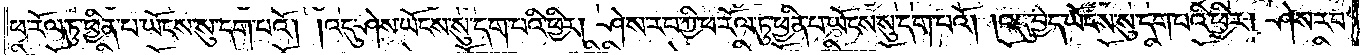ཕ་རོལ་ཏུ་ཕྱིན་པ་ཡོངས་སུ་དག་པའོ། །འདུ་ཤེས་ཡོངས་སུ་དག་པའི་ཕྱིར། ཤེས་རབ་ཀྱི་ཕ་རོལ་ཏུ་ཕྱིན་པ་ཡོངས་སུ་དག་པའོ། །འདུ་བྱེད་ཡོངས་སུ་དག་པའི་ཕྱིར། ཤེས་རབ་
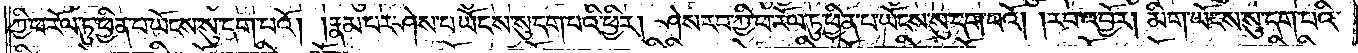ཀྱི་ཕ་རོལ་ཏུ་ཕྱིན་པ་ཡོངས་སུ་དག་པའོ། །རྣམ་པར་ཤེས་པ་ཡོངས་སུ་དག་པའི་ཕྱིར། ཤེས་རབ་ཀྱི་ཕ་རོལ་ཏུ་ཕྱིན་པ་ཡོངས་སུ་དག་པའོ། །རབ་འབྱོར། མིག་ཡོངས་སུ་དག་པའི་
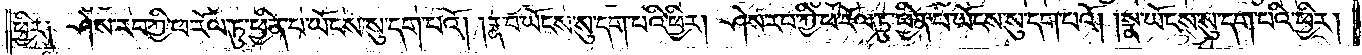ཕྱིར༑ ཤེས་རབ་ཀྱི་ཕ་རོལ་ཏུ་ཕྱིན་པ་ཡོངས་སུ་དག་པའོ། །རྣ་བ་ཡོངས་སུ་དག་པའི་ཕྱིར། ཤེས་རབ་ཀྱི་ཕ་རོལ་ཏུ་ཕྱིན་པ་ཡོངས་སུ་དག་པའོ། །སྣ་ཡོངས་སུ་དག་པའི་ཕྱིར།
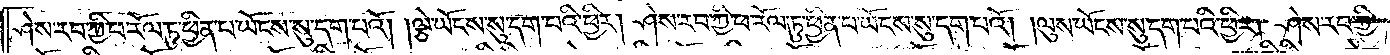ཤེས་རབ་ཀྱི་ཕ་རོལ་ཏུ་ཕྱིན་པ་ཡོངས་སུ་དག་པའོ། །ལྕེ་ཡོངས་སུ་དག་པའི་ཕྱིར། ཤེས་རབ་ཀྱི་ཕ་རོལ་ཏུ་ཕྱིན་པ་ཡོངས་སུ་དག་པའོ། །ལུས་ཡོངས་སུ་དག་པའི་ཕྱིར། ཤེས་རབ་ཀྱི་
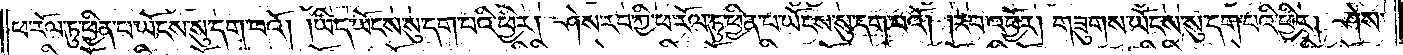ཕ་རོལ་ཏུ་ཕྱིན་པ་ཡོངས་སུ་དག་པའོ། །ཡིད་ཡོངས་སུ་དག་པའི་ཕྱིར། ཤེས་རབ་ཀྱི་ཕ་རོལ་ཏུ་ཕྱིན་པ་ཡོངས་སུ་དག་པའོ། །རབ་འབྱོར། གཟུགས་ཡོངས་སུ་དག་པའི་ཕྱིར། ཤེས་
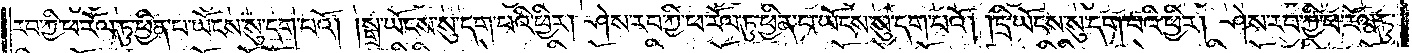རབ་ཀྱི་ཕ་རོལ་ཏུ་ཕྱིན་པ་ཡོངས་སུ་དག་པའོ། །སྒྲ་ཡོངས་སུ་དག་པའི་ཕྱིར། ཤེས་རབ་ཀྱི་ཕ་རོལ་ཏུ་ཕྱིན་པ་ཡོངས་སུ་དག་པའོ། །དྲི་ཡོངས་སུ་དག་པའི་ཕྱིར། ཤེས་རབ་ཀྱི་ཕ་རོལ་ཏུ་
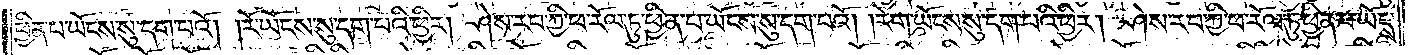ཕྱིན་པ་ཡོངས་སུ་དག་པའོ། །རོ་ཡོངས་སུ་དག་པའི་ཕྱིར། ཤེས་རབ་ཀྱི་ཕ་རོལ་ཏུ་ཕྱིན་པ་ཡོངས་སུ་དག་པའོ། །རེག་ཡོངས་སུ་དག་པའི་ཕྱིར། ཤེས་རབ་ཀྱི་ཕ་རོལ་ཏུ་ཕྱིན་པ་ཡོངས་
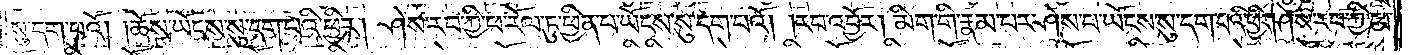སུ་དག་པའོ། །ཆོས་ཡོངས་སུ་དག་པའི་ཕྱིར། ཤེས་རབ་ཀྱི་ཕ་རོལ་ཏུ་ཕྱིན་པ་ཡོངས་སུ་དག་པའོ། །རབ་འབྱོར། མིག་གི་རྣམ་པར་ཤེས་པ་ཡོངས་སུ་དག་པའི་ཕྱིར། ཤེས་རབ་ཀྱི་ཕ་
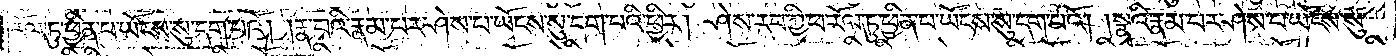རོལ་ཏུ་ཕྱིན་པ་ཡོངས་སུ་དག་པའོ། །རྣ་བའི་རྣམ་པར་ཤེས་པ་ཡོངས་སུ་དག་པའི་ཕྱིར། ཤེས་རབ་ཀྱི་ཕ་རོལ་ཏུ་ཕྱིན་པ་ཡོངས་སུ་དག་པའོ། །སྣའི་རྣམ་པར་ཤེས་པ་ཡོངས་སུ་
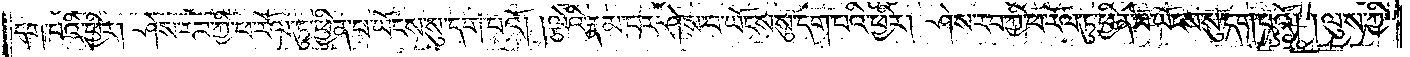དག་པའི་ཕྱིར། ཤེས་རབ་ཀྱི་ཕ་རོལ་ཏུ་ཕྱིན་པ་ཡོངས་སུ་དག་པའོ། །ལྕེའི་རྣམ་པར་ཤེས་པ་ཡོངས་སུ་དག་པའི་ཕྱིར། ཤེས་རབ་ཀྱི་ཕ་རོལ་ཏུ་ཕྱིན་པ་ཡོངས་སུ་དག་པའོ། །ལུས་ཀྱི་
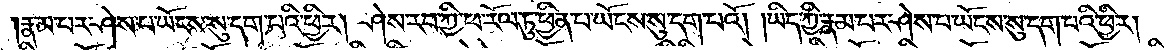རྣམ་པར་ཤེས་པ་ཡོངས་སུ་དག་པའི་ཕྱིར། ཤེས་རབ་ཀྱི་ཕ་རོལ་ཏུ་ཕྱིན་པ་ཡོངས་སུ་དག་པའོ། །ཡིད་ཀྱི་རྣམ་པར་ཤེས་པ་ཡོངས་སུ་དག་པའི་ཕྱིར།
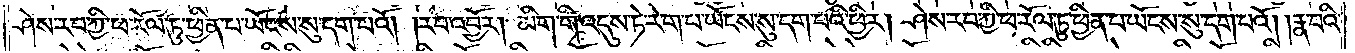ཤེས་རབ་ཀྱི་ཕ་རོལ་ཏུ་ཕྱིན་པ་ཡོངས་སུ་དག་པའོ། །རབ་འབྱོར། མིག་གི་འདུས་ཏེ་རེག་པ་ཡོངས་སུ་དག་པའི་ཕྱིར། ཤེས་རབ་ཀྱི་ཕ་རོལ་ཏུ་ཕྱིན་པ་ཡོངས་སུ་དག་པའོ། །རྣ་བའི་
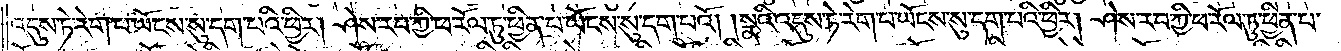འདུས་ཏེ་རེག་པ་ཡོངས་སུ་དག་པའི་ཕྱིར། ཤེས་རབ་ཀྱི་ཕ་རོལ་ཏུ་ཕྱིན་པ་ཡོངས་སུ་དག་པའོ། །སྣའི་འདུས་ཏེ་རེག་པ་ཡོངས་སུ་དག་པའི་ཕྱིར། ཤེས་རབ་ཀྱི་ཕ་རོལ་ཏུ་ཕྱིན་པ་
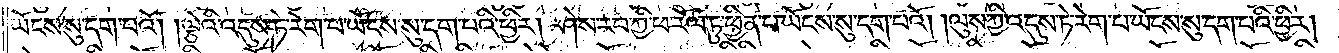ཡོངས་སུ་དག་པའོ། །ལྕེའི་འདུས་ཏེ་རེག་པ་ཡོངས་སུ་དག་པའི་ཕྱིར། ཤེས་རབ་ཀྱི་ཕ་རོལ་ཏུ་ཕྱིན་པ་ཡོངས་སུ་དག་པའོ། །ལུས་ཀྱི་འདུས་ཏེ་རེག་པ་ཡོངས་སུ་དག་པའི་ཕྱིར།
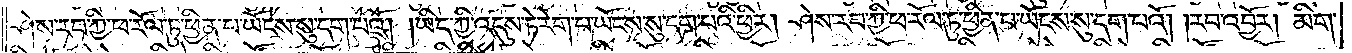ཤེས་རབ་ཀྱི་ཕ་རོལ་ཏུ་ཕྱིན་པ་ཡོངས་སུ་དག་པའོ། །ཡིད་ཀྱི་འདུས་ཏེ་རེག་པ་ཡོངས་སུ་དག་པའི་ཕྱིར། ཤེས་རབ་ཀྱི་ཕ་རོལ་ཏུ་ཕྱིན་པ་ཡོངས་སུ་དག་པའོ། །རབ་འབྱོར། མིག་
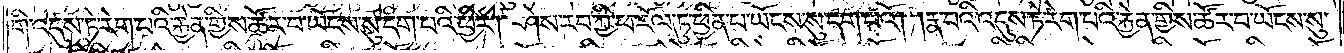གི་འདུས་ཏེ་རེག་པའི་རྐྱེན་གྱིས་ཚོར་བ་ཡོངས་སུ་དག་པའི་ཕྱིར། ཤེས་རབ་ཀྱི་ཕ་རོལ་ཏུ་ཕྱིན་པ་ཡོངས་སུ་དག་པའོ། །རྣ་བའི་འདུས་ཏེ་རེག་པའི་རྐྱེན་གྱིས་ཚོར་བ་ཡོངས་སུ་
